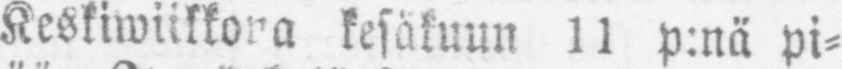Keskiwiikkona kesäkuun 11 p:nä pi-
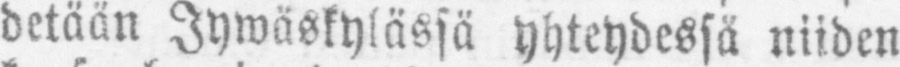detään Jywäskylässä yhteydessä niiden
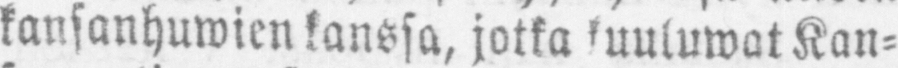kansanhuwien kanssa, jotka kuuluwat Kan-
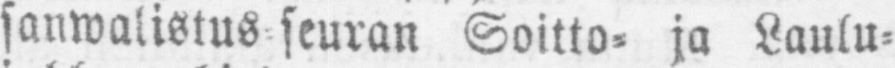sanwalistus-seuran Soitto- ja Laulu-
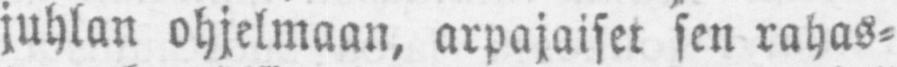juhlan ohjelmaan, arpajaiset sen rahas-
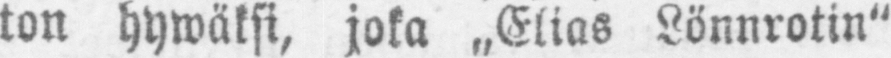ton hywäksi, joka „Elias Lönnrotin"
